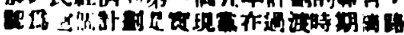認爲這個計劃是實現黨在過渡時期總路
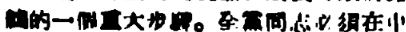綫的一個重大步驟。全黨同志必須在中
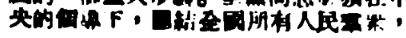央的領導下，團結全國所有人民羣衆，
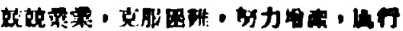兢兢業業，克服困難，努力增產，厲行
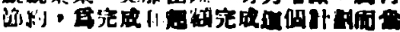節約，爲完成和超額完成這個計劃而奮
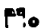鬥。
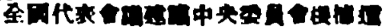全國代表會議建議中央委員會根據這
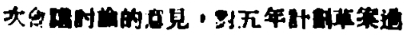次會議討論的意見，對五年計劃草案進
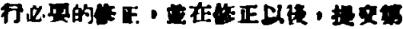行必要的修正，並在修正以後，提交第
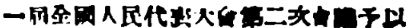一屆全國人民代表大會第二次會議予以
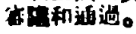審議和通過。
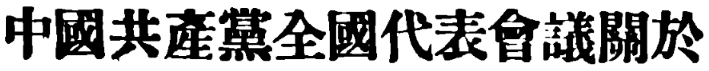中國共產黨全國代表會議關於
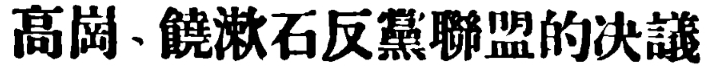高崗、饒漱石反黨聯盟的決議
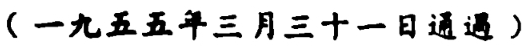（一九五五年三月三十一日通過）
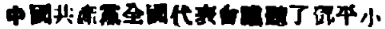中國共產黨全國代表會議聽了鄧小平
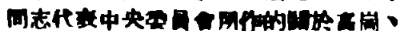同志代表中央委員會所作的關於高崗、
